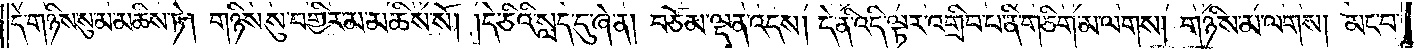དེ་གཉིས་སུ་མ་མཆིས་ཏེ། གཉིས་སུ་བགྱིར་མ་མཆིས་སོ། །དེ་ཅིའི་སླད་དུ་ཞེ་ན། བཅོམ་ལྡན་འདས། དེ་ནི་འདི་ལྟར་འགྲིབ་པ་ནི་གཅིག་མ་ལགས། གཉིས་མ་ལགས། མང་བ་
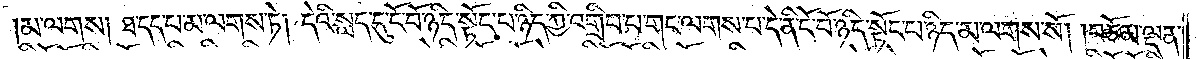མ་ལགས། ཐ་དད་པ་མ་ལགས་ཏེ། དེའི་སླད་དུ་ངོ་བོ་ཉིད་སྟོང་པ་ཉིད་ཀྱི་འགྲིབ་པ་གང་ལགས་པ་དེ་ནི་ངོ་བོ་ཉིད་སྟོང་པ་ཉིད་མ་ལགས་སོ། །བཅོམ་ལྡན་
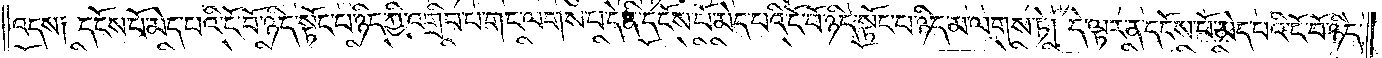འདས། དངོས་པོ་མེད་པའི་ངོ་བོ་ཉིད་སྟོང་པ་ཉིད་ཀྱི་འགྲིབ་པ་གང་ལགས་པ་དེ་ནི་དངོས་པོ་མེད་པའི་ངོ་བོ་ཉིད་སྟོང་པ་ཉིད་མ་ལགས་ཏེ། དེ་ལྟར་ན་དངོས་པོ་མེད་པའི་ངོ་བོ་ཉིད་
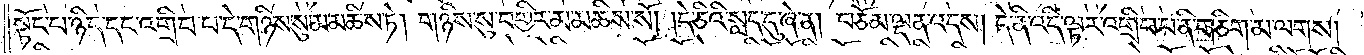སྟོང་པ་ཉིད་དང་འགྲིབ་པ་དེ་གཉིས་སུ་མ་མཆིས་ཏེ། གཉིས་སུ་བགྱིར་མ་མཆིས་སོ། །དེ་ཅིའི་སླད་དུ་ཞེ་ན། བཅོམ་ལྡན་འདས། དེ་ནི་འདི་ལྟར་འགྲིབ་པ་ནི་གཅིག་མ་ལགས།
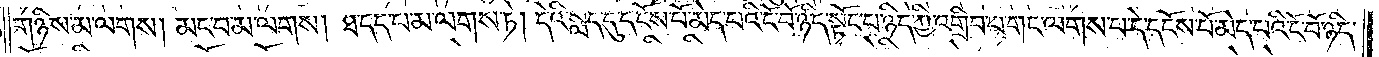གཉིས་མ་ལགས། མང་བ་མ་ལགས། ཐ་དད་པ་མ་ལགས་ཏེ། དེའི་སླད་དུ་དངོས་པོ་མེད་པའི་ངོ་བོ་ཉིད་སྟོང་པ་ཉིད་ཀྱི་འགྲིབ་པ་གང་ལགས་པ་དེ་དངོས་པོ་མེད་པའི་ངོ་བོ་ཉིད་
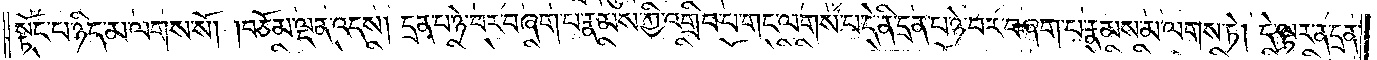སྟོང་པ་ཉིད་མ་ལགས་སོ། །བཅོམ་ལྡན་འདས། དྲན་པ་ཉེ་བར་བཞག་པ་རྣམས་ཀྱི་འགྲིབ་པ་གང་ལགས་པ་དེ་ནི་དྲན་པ་ཉེ་བར་བཞག་པ་རྣམས་མ་ལགས་ཏེ། དེ་ལྟར་ན་དྲན་
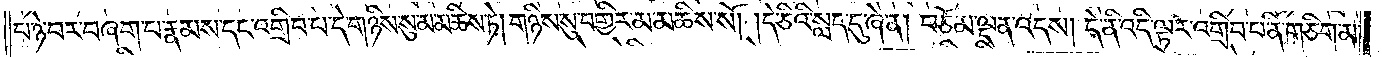པ་ཉེ་བར་བཞག་པ་རྣམས་དང་འགྲིབ་པ་དེ་གཉིས་སུ་མ་མཆིས་ཏེ། གཉིས་སུ་བགྱིར་མ་མཆིས་སོ། །དེ་ཅིའི་སླད་དུ་ཞེ་ན། བཅོམ་ལྡན་འདས། དེ་ནི་འདི་ལྟར་འགྲིབ་པ་ནི་གཅིག་མ་
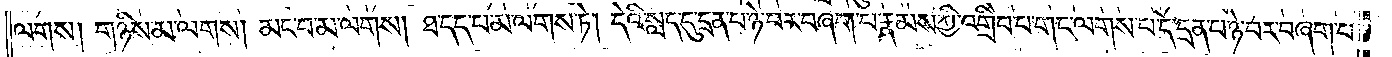ལགས། གཉིས་མ་ལགས། མང་བ་མ་ལགས། ཐ་དད་པ་མ་ལགས་ཏེ། དེའི་སླད་དུ་དྲན་པ་ཉེ་བར་བཞག་པ་རྣམས་ཀྱི་འགྲིབ་པ་གང་ལགས་པ་དེ་དྲན་པ་ཉེ་བར་བཞག་པ་
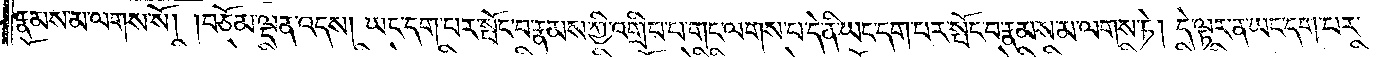རྣམས་མ་ལགས་སོ། །བཅོམ་ལྡན་འདས། ཡང་དག་པར་སྤོང་བ་རྣམས་ཀྱི་འགྲིབ་པ་གང་ལགས་པ་དེ་ནི་ཡང་དག་པར་སྤོང་བ་རྣམས་མ་ལགས་ཏེ། དེ་ལྟར་ན་ཡང་དག་པར་
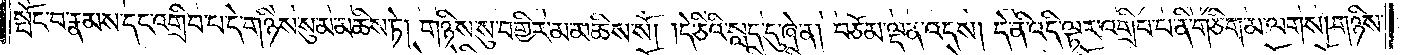སྤོང་བ་རྣམས་དང་འགྲིབ་པ་དེ་གཉིས་སུ་མ་མཆིས་ཏེ། གཉིས་སུ་བགྱིར་མ་མཆིས་སོ། །དེ་ཅིའི་སླད་དུ་ཞེ་ན། བཅོམ་ལྡན་འདས། དེ་ནི་འདི་ལྟར་འགྲིབ་པ་ནི་གཅིག་མ་ལགས། གཉིས་
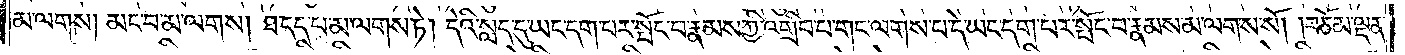མ་ལགས། མང་བ་མ་ལགས། ཐ་དད་པ་མ་ལགས་ཏེ། དེའི་སླད་དུ་ཡང་དག་པར་སྤོང་བ་རྣམས་ཀྱི་འགྲིབ་པ་གང་ལགས་པ་དེ་ཡང་དག་པར་སྤོང་བ་རྣམས་མ་ལགས་སོ། །བཅོམ་ལྡན་
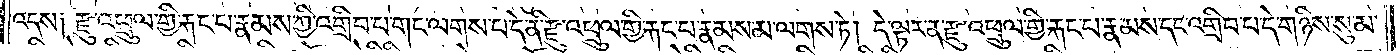འདས། རྫུ་འཕྲུལ་གྱི་རྐང་པ་རྣམས་ཀྱི་འགྲིབ་པ་གང་ལགས་པ་དེ་ནི་རྫུ་འཕྲུལ་གྱི་རྐང་པ་རྣམས་མ་ལགས་ཏེ། དེ་ལྟར་ན་རྫུ་འཕྲུལ་གྱི་རྐང་པ་རྣམས་དང་འགྲིབ་པ་དེ་གཉིས་སུ་མ་
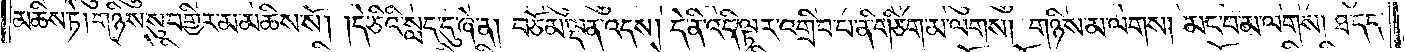མཆིས་ཏེ། གཉིས་སུ་བགྱིར་མ་མཆིས་སོ། །དེ་ཅིའི་སླད་དུ་ཞེ་ན། བཅོམ་ལྡན་འདས། དེ་ནི་འདི་ལྟར་འགྲིབ་པ་ནི་གཅིག་མ་ལགས། གཉིས་མ་ལགས། མང་བ་མ་ལགས། ཐ་དད་
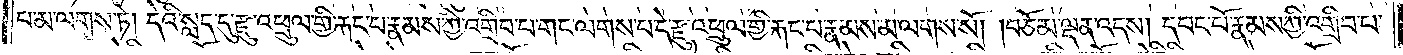པ་མ་ལགས་ཏེ། དེའི་སླད་དུ་རྫུ་འཕྲུལ་གྱི་རྐང་པ་རྣམས་ཀྱི་འགྲིབ་པ་གང་ལགས་པ་དེ་རྫུ་འཕྲུལ་གྱི་རྐང་པ་རྣམས་མ་ལགས་སོ། །བཅོམ་ལྡན་འདས། དབང་པོ་རྣམས་ཀྱི་འགྲིབ་པ་
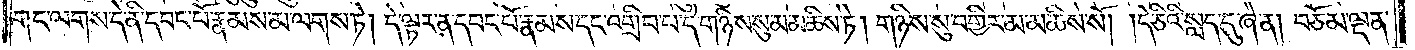གང་ལགས་པ་དེ་ནི་དབང་པོ་རྣམས་མ་ལགས་ཏེ། དེ་ལྟར་ན་དབང་པོ་རྣམས་དང་འགྲིབ་པ་དེ་གཉིས་སུ་མ་མཆིས་ཏེ། གཉིས་སུ་བགྱིར་མ་མཆིས་སོ། །དེ་ཅིའི་སླད་དུ་ཞེ་ན། བཅོམ་ལྡན་
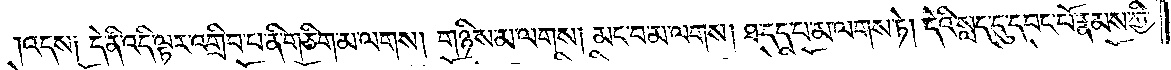འདས༑ དེ་ནི་འདི་ལྟར་འགྲིབ་པ་ནི་གཅིག་མ་ལགས། གཉིས་མ་ལགས། མང་བ་མ་ལགས། ཐ་དད་པ་མ་ལགས་ཏེ། དེའི་སླད་དུ་དབང་པོ་རྣམས་ཀྱི་
